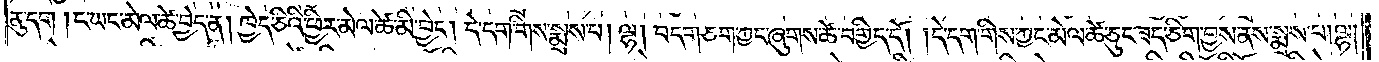ནུ་དག །ང་ཡང་མེལ་ཚེ་བྱེད་ན། ཁྱེད་ཅིའི་ཕྱིར་མེལ་ཚེ་མི་བྱེད། དེ་དག་གིས་སྨྲས་པ། ལྷ། བདག་ཅག་ཀྱང་ཞུགས་ཚེ་བགྱིད་དོ། །དེ་དག་གིས་ཀྱང་མེལ་ཚེ་ཅུང་ཟད་ཅིག་བྱས་ནས་སྨྲས་པ། ལྷ།
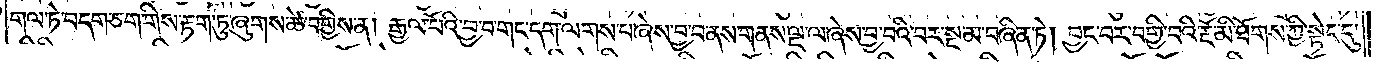གལ་ཏེ་བདག་ཅག་གིས་རྟག་ཏུ་ཞུགས་ཚེ་བགྱིས་ན། རྒྱལ་པོའི་བྱ་བ་གང་དག་ལགས་པ་ཞེས་བྱ་བ་ནས་གནས་ལྔ་ལ་ཞེས་བྱ་བའི་བར་སྔ་མ་བཞིན་ཏེ། བྱང་བར་བགྱི་བའི་རྔོ་མི་ཐོགས་ཀྱི་སྟེང་དུ་
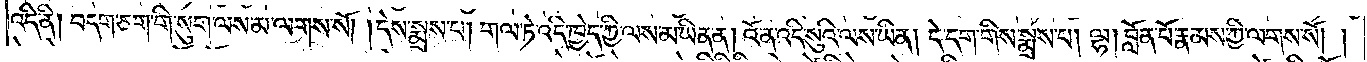འདི་ནི། བདག་ཅག་གི་སུག་ལས་མ་ལགས་སོ། །དེས་སྨྲས་པ། གལ་ཏེ་འདི་ཁྱེད་ཀྱི་ལས་མ་ཡིན་ན། འོ་ན་འདི་སུའི་ལས་ཡིན། དེ་དག་གིས་སྨྲས་པ། ལྷ། བློན་པོ་རྣམས་ཀྱི་ལགས་སོ། །
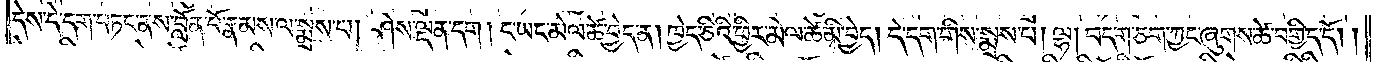དེས་དེ་དག་བཏང་ནས་བློན་པོ་རྣམས་ལ་སྨྲས་པ། ཤེས་ལྡན་དག །ང་ཡང་མེལ་ཚེ་བྱེད་ན། ཁྱེད་ཅིའི་ཕྱིར་མེལ་ཚེ་མི་བྱེད། དེ་དག་གིས་སྨྲས་པ། ལྷ། བདག་ཅག་ཀྱང་ཞུགས་ཚེ་བགྱིད་དོ། །
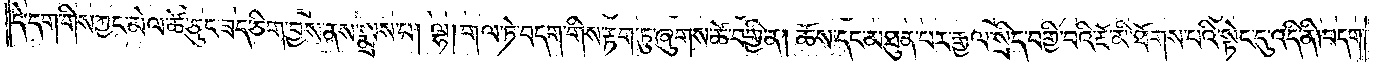དེ་དག་གིས་ཀྱང་མེལ་ཚེ་ཅུང་ཟད་ཅིག་བྱས་ནས་སྨྲས་པ། ལྷ། གལ་ཏེ་བདག་གིས་རྟག་ཏུ་ཞུགས་ཚེ་བགྱི་ན། ཆོས་དང་མཐུན་པར་རྒྱལ་སྲིད་བགྱི་པའི་རྔོ་མི་ཐོགས་པའི་སྟེང་དུ་འདི་ནི། བདག་
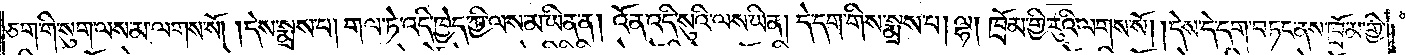ཅག་གི་སུག་ལས་མ་ལགས་སོ། །དེས་སྨྲས་པ། གལ་ཏེ་འདི་ཁྱེད་ཀྱི་ལས་མ་ཡིན་ན། འོ་ན་འདི་སུའི་ལས་ཡིན། དེ་དག་གིས་སྨྲས་པ། ལྷ། ཁྲོམ་གྱི་རུའི་ལགས་སོ། །དེས་དེ་དག་བཏང་ནས་ཁྲོམ་གྱི་
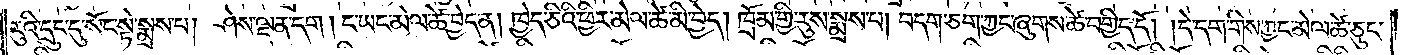རུའི་དྲུང་དུ་སོང་སྟེ་སྨྲས་པ། ཤེས་ལྡན་དག །ང་ཡང་མེལ་ཚེ་བྱེད་ན། ཁྱེད་ཅིའི་ཕྱིར་མེལ་ཚེ་མི་བྱེད། ཁྲོམ་གྱི་རུས་སྨྲས་པ། བདག་ཅག་ཀྱང་ཞུགས་ཚེ་བགྱིད་དོ། །དེ་དག་གིས་ཀྱང་མེལ་ཚེ་ཅུང་
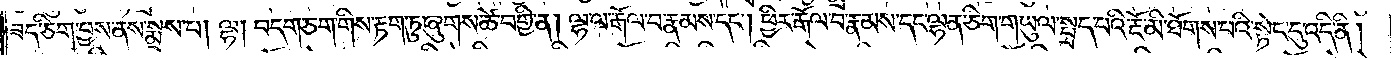ཟད་ཅིག་བྱས་ནས་སྨྲས་པ། ལྷ། བདག་ཅག་གིས་རྟག་ཏུ་ཞུགས་ཚེ་བགྱི་ན། ལྷ་ལ་རྒོལ་བ་རྣམས་དང༌། ཕྱིར་རྒོལ་བ་རྣམས་དང་ལྷན་ཅིག་གཡུལ་སྤྲད་པའི་རྔོ་མི་ཐོགས་པའི་སྟེང་དུ་འདི་ནི།
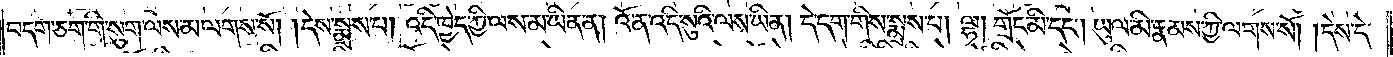བདག་ཅག་གི་སུག་ལས་མ་ལགས་སོ། །དེས་སྨྲས་པ། འདི་ཁྱེད་ཀྱི་ལས་མ་ཡིན་ན། འོ་ན་འདི་སུའི་ལས་ཡིན། དེ་དག་གིས་སྨྲས་པ། ལྷ། གྲོང་མི་དང༌། ཡུལ་མི་རྣམས་ཀྱི་ལགས་སོ། །དེས་དེ་
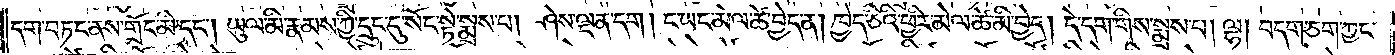དག་བཏང་ནས་གྲོང་མི་དང༌། ཡུལ་མི་རྣམས་ཀྱི་དྲུང་དུ་སོང་སྟེ་སྨྲས་པ། ཤེས་ལྡན་དག །ང་ཡང་མེལ་ཚེ་བྱེད་ན། ཁྱེད་ཅིའི་ཕྱིར་མེལ་ཚེ་མི་བྱེད། དེ་དག་གིས་སྨྲས་པ། ལྷ། བདག་ཅག་ཀྱང་
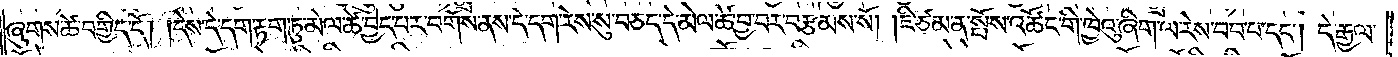ཞུགས་ཚེ་བགྱིད་དོ། །དེས་དེ་དག་རྟག་ཏུ་མེལ་ཚེ་བྱེད་པར་བགོས་ནས་དེ་དག་རེས་སུ་བཅད་དེ་མེལ་ཚེ་བྱ་བར་བརྩམས་སོ། །ཇི་ཙམ་ན་སྤོས་འཚོང་གི་ཁྱེའུ་ཞིག་ལ་རེས་བབ་པ་དང༌། དེ་རྒྱལ་
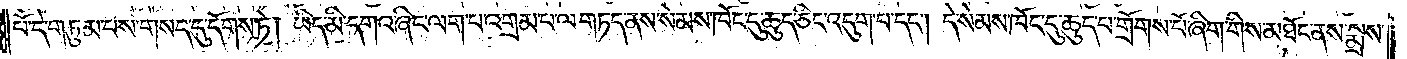པོ་དེ་དག་གཏུམ་པས་གསད་དུ་དོགས་ཏེ། ཡིད་མི་དགའ་ཞིང་ལག་པ་འགྲམ་པ་ལ་གཏད་ནས་སེམས་ཁོང་དུ་ཆུད་ཅིང་འདུག་པ་དང༌། དེ་སེམས་ཁོང་དུ་ཆུད་པ་གྲོགས་པོ་ཞིག་གིས་མཐོང་ནས་སྨྲས་
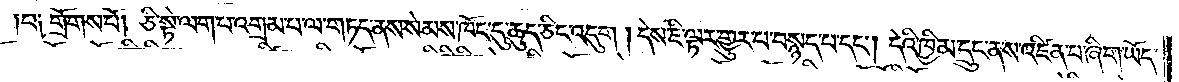བ། གྲོགས་པོ། ཅི་སྟེ་ལག་པ་འགྲམ་པ་ལ་གཏད་ནས་སེམས་ཁོང་དུ་ཆུད་ཅིང་འདུག །དེས་ཇི་ལྟར་གྱུར་པ་བསྙད་པ་དང༌། དེའི་ཁྱིམ་དྲུང་ན་ས་འཛིན་པ་ཞིག་ཡོད་
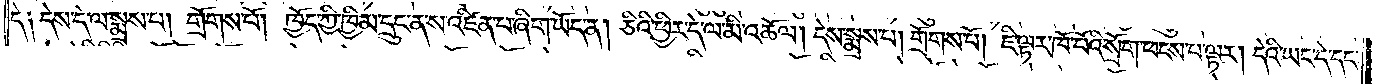དེ༑ དེས་དེ་ལ་སྨྲས་པ། གྲོགས་པོ། ཁྱོད་ཀྱི་ཁྱིམ་དྲུང་ན་ས་འཛིན་པ་ཞིག་ཡོད་ན། ཅིའི་ཕྱིར་དེ་ལ་མི་འཆོལ། དེས་སྨྲས་པ། གྲོགས་པོ། ཇི་ལྟར་ཁོ་བོའི་སྲོག་ཕངས་པ་ལྟར། དེའི་ཡང་དེ་དང་
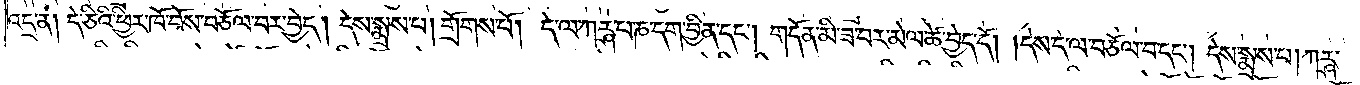འདྲ་ན། དེ་ཅིའི་ཕྱིར་ཁོ་བོས་བཅོལ་བར་བྱེད། དེས་སྨྲས་པ། གྲོགས་པོ། དེ་ལ་ཀཪྴ་པ་ཎ་དག་བྱིན་དང༌། གདོན་མི་ཟ་བར་མེལ་ཚེ་བྱེད་དོ། །དེས་དེ་ལ་བཅོལ་བ་དང༌། དེས་སྨྲས་པ། ཀཪྴ་
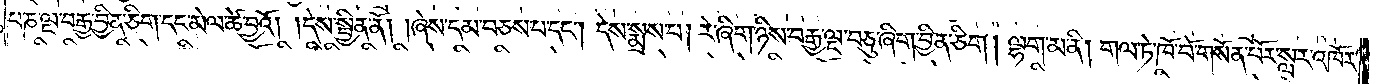པ་ཎ་ལྔ་བརྒྱ་བྱིན་ཅིག་དང་མེལ་ཚེ་བྱའོ། །དེས་སྦྱིན་ནོ། །ཞེས་དམ་བཅས་པ་དང༌། དེས་སྨྲས་པ། རེ་ཞིག་ཉིས་བརྒྱ་ལྔ་བཅུ་ཞིག་བྱིན་ཅིག །ལྷག་མ་ནི། གལ་ཏེ་ཁོ་བོ་གསོན་པོར་སླར་འཁོར་
